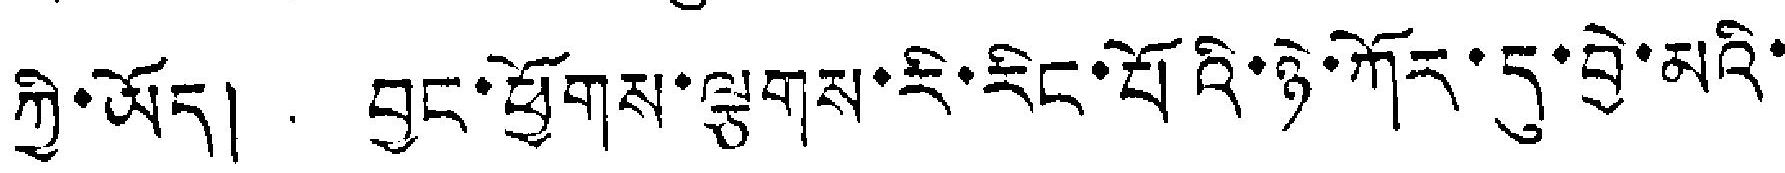ཀྱི་ཡོད། བྱང་ཕྱོགས་ལྕགས་རི་རིང་པོའི་ཉེ་ཀོར་དུ་བྱེ་མའི་
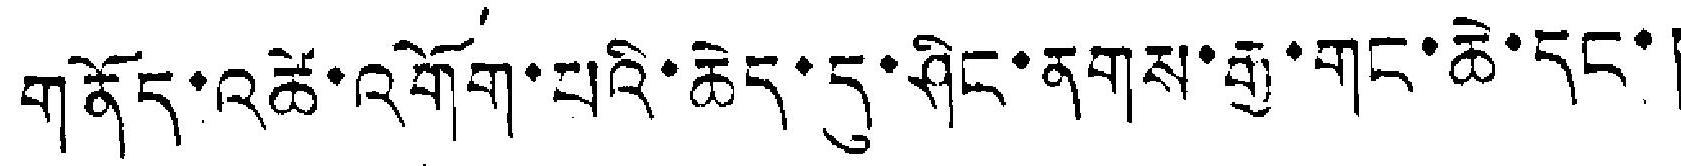གནོད་འཚེ་འགོག་པའི་ཆེད་དུ་ཤིང་ནགས་རྒྱ་གང་ཆེ་དང་།
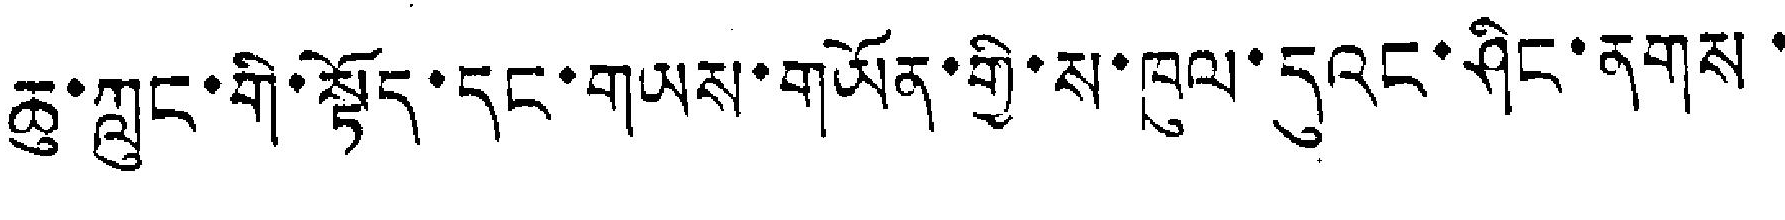ཆུ་ཀླུང་གི་སྟོད་དང་གཡས་གཡོན་གྱི་ས་ཁུལ་དུའང་ཤིང་ནགས་
